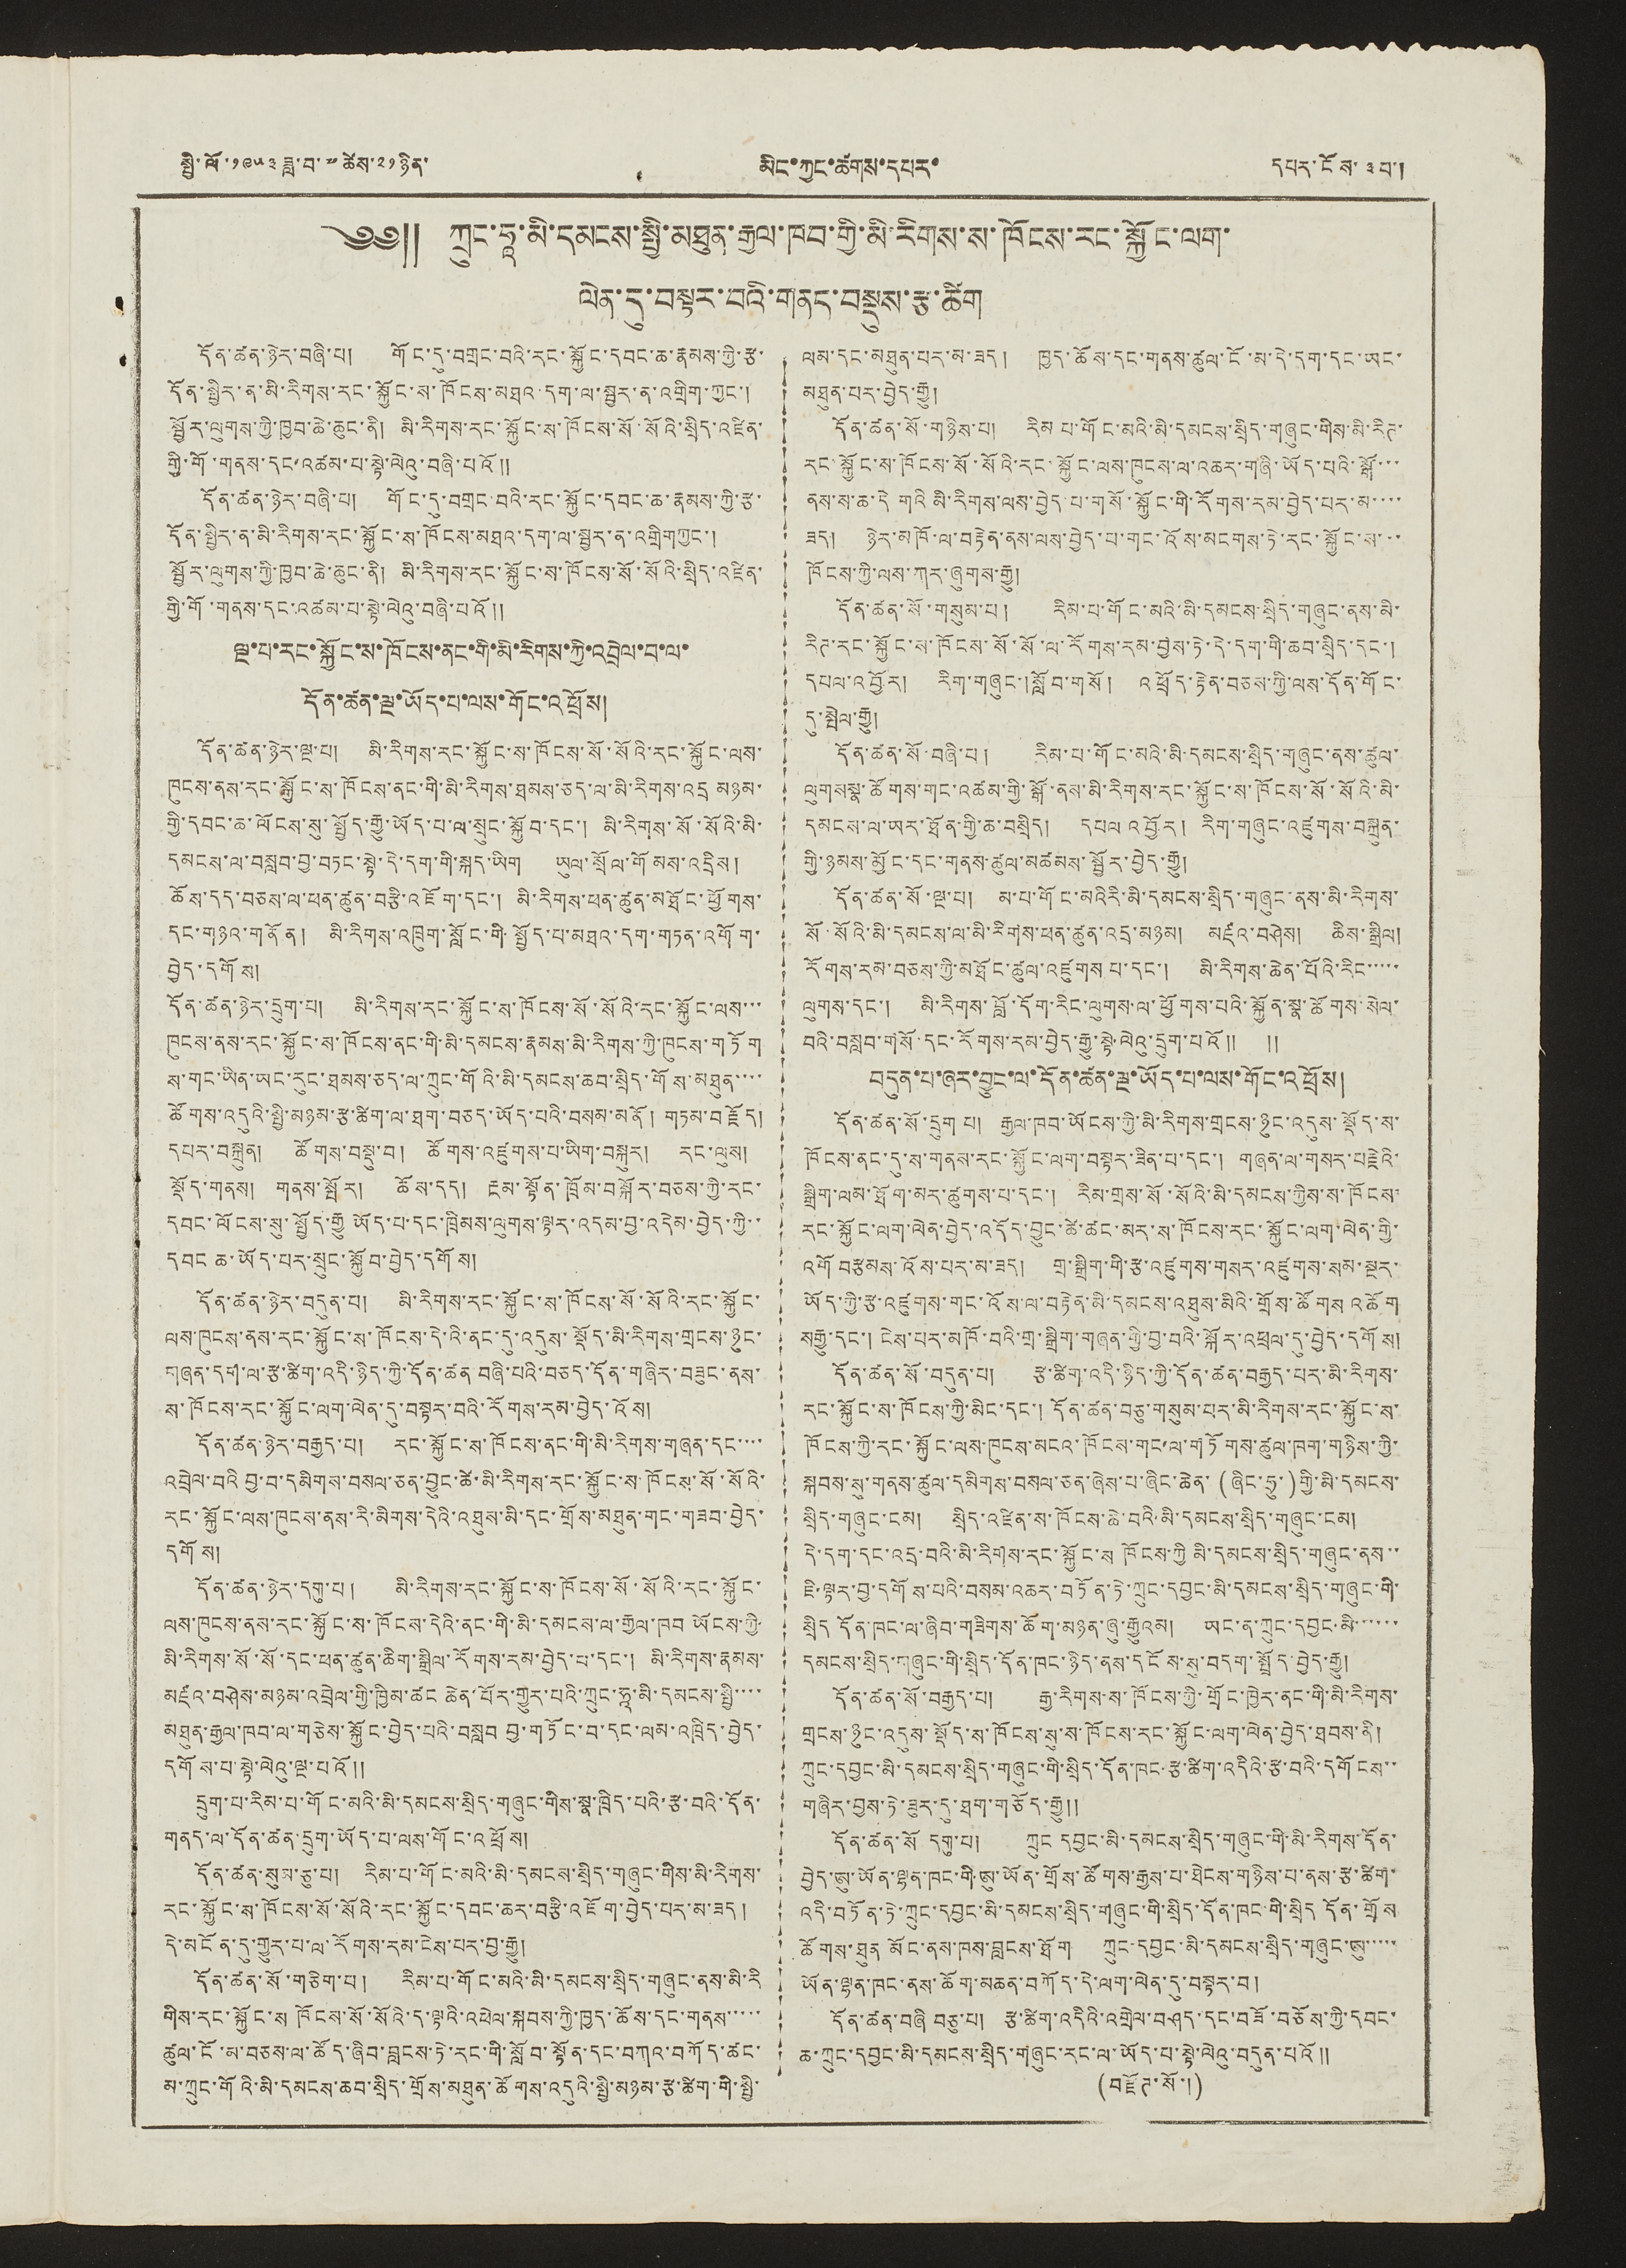སྤྱི་ལོ་ ༡༩༥༣ ཟླ་བ་ ༧ ཚེས་ ༢༡ ཉིན་ མིང་ཀྱང་ཚགས་དཔར་ དཔར་ངོས་ ༣ པ་།
༄༅༎ ཀྲུང་ཧཱ་མི་དམངས་སྤྱི་མཐུན་རྒྱལ་ཁབ་གྱི་མི་རིགས་ས་ཁོངས་རང་སྐྱོང་ལག་
ལེན་དུ་བསྟར་བའི་གནད་བསྡུས་རྩ་ཚིག
དོན་ཚན་ཉེར་བཞི་པ། གོང་དུ་བགྲང་བའི་རང་སྐྱོང་དབང་ཆ་རྣམས་ཀྱི་རྩ་
དོན་སྤྱིར་ན་མི་རིགས་རང་སྐྱོང་ས་ཁོངས་མཐའ་དག་ལ་སྦྱར་ན་འགྲིག་ཀྱང་།
སྦྱོར་ལུགས་ཀྱི་ཁྱབ་ཆེ་ཆུང་ནི། མི་རིགས་རང་སྐྱོང་ས་ཁོངས་སོ་སོའི་སྲིད་འཛིན་
གྱི་གོ་གནས་དང་འཚམ་པ་སྟེ་ལེའུ་བཞི་པའོ༎
དོན་ཚན་ཉེར་བཞི་པ། གོང་དུ་བགྲང་བའི་རང་སྐྱོང་དབང་ཆ་རྣམས་ཀྱི་རྩ་
དོན་སྤྱིར་ན་མི་རིགས་རང་སྐྱོང་ས་ཁོངས་མཐའ་དག་ལ་སྦྱར་ན་འགྲིག ཀྱང་།
སྦྱོར་ལུགས་ཀྱི་ཁྱབ་ཆེ་ཆུང་ནི། མི་རིགས་རང་སྐྱོང་ས་ཁོངས་སོ་སོའི་སྲིད་འཛིན་
གྱི་གོ་གནས་དང་འཚམ་པ་སྟེ་ལེའུ་བཞི་པའོ༎
ལྔ་པ་རང་སྐྱོང་ས་ཁོངས་ནང་གི་མི་རིགས་ཀྱི་འབྲེལ་བ་ལ་
དོན་ཚན་ལྔ་ཡོད་པ་ལས་གོང་འཕྲོས།
དོན་ཚན་ཉེར་ལྔ་པ། མི་རིགས་རང་སྐྱོང་ས་ཁོངས་སོ་སོའི་རང་སྐྱོང་ལས་
ཁུངས་ནས་རང་སྐྱོང་ས་ཁོངས་ནང་གི་མི་རིགས་ཐམས་ཅད་ལ་མི་རིགས་འདྲ མཉམ་
གྱི་དབང་ཆ་ལོངས་སུ་སྤྱོད་རྒྱུ་ཡོད་པ་ལ་སྲུང་སྐྱོབ་དང་། མི་རིགས་སོ་སོའི་མི་
དམངས་ལ་བསླབ་བྱ་བཏང་སྟེ་དེ་དག་གི་སྐད་ཡིག ཡུལ་སྲོལ་གོ མས་འདྲིས།
ཆོས་དད་བཅས་ལ་ཕན་ཚུན་བརྩི་འཇོག་དང་། མི་རིགས་ཕན་ཚུན་མཐོང་ཕྱོགས་
དང་གཉའ་གནོན། མི་རིགས་འཁྲུག་སློང་གི་སྤྱོད་པ་མཐའ་དག་གཏན་འགོག་
བྱེད་དགོས།
དོན་ཚན་ཉེར་དྲུག་པ། མི་རིགས་རང་སྐྱོང་ས་ཁོངས་སོ་སོའི་རང་སྐྱོང་ལས་་་་
ཁུངས་ནས་རང་སྐྱོང་ས་ཁོངས་ནང་གི་མི་དམངས་རྣམས་མི་རིགས་ཀྱི་ཁུངས་གཏོག
ས་གང་ཡིན་ཡང་རུང་ཐམས་ཅད་ལ་ཀྲུང་གོའི་མི་དམངས་ཆབ་སྲིད་གོས་མཐུན་་་་
ཚོགས་འདུའི་སྤྱི་མཉམ་རྩ་ཚིག་ལ་ཐག་བཅད་ཡོད་པའི་བསམ་མནོ། གཏམ་བརྗོད།
དཔར་བསྐྲུན། ཚོགས་བསྡུ་བ། ཚོགས་འཛུགས་པ་ཡིག་བསྐུར། རང་ལུས།
སྡོད་གནས། གནས་སྤོར། ཆོས་དད། རྔམ་སྟོན་ཁྲོམ་བསྐོར་བཅས་ཀྱི་རང་
དབང་ལོངས་སུ་སྤྱོད་རྒྱུ ཡོད་པ་དང་ཁྲིམས་ལུགས་ལྟར་འདམ་བྱ་འདེམ་བྱེད་ཀྱི་་
དབང ཆ་ཡོད་པར་སྲུང་སྐྱོབ་བྱེད་དགོས།
དོན་ཚན་ཉེར་བདུན་པ། མི་རིགས་རང་སྐྱོང་ས་ཁོངས་སོ་སོའི་རང་སྐྱོང་
ལས་ཁུངས་ནས་རང་སྐྱོང་ས་ཁོངས་དེ་འི་ནང་དུ་འདུས་སྡོད་མི་རིགས་གྲངས་ཉུང་
གཞན་དག་ལ་རྩ་ཚིག་འདི་ཉིད་ཀྱི་དོན་ཚན་བཞི་པའི་བཅད་དོན་གཞིར་བཟུང་ནས་
ས་ཁོངས་རང་སྐྱོང་ལག་ལེན་དུ་བསྟར་བའི་རོགས་རམ་བྱེད་འོས།
དོན་ཚན་ཉེར་བརྒྱད་པ། རང་སྐྱོང་ས་ཁོངས་ནང་གི་མི་རིགས་གཞན་དང་་་་
འབྲེལ་བའི བྱ་བ་དམིགས་བསལ་ཅན་བྱུང་ཚེ་མི་རིགས་རང་སྐྱོང་ས་ཁོངས་སོ་སོའི་
རང་སྐྱོང་ལས་ཁུངས་ནས་རི་མིགས་དེའི་འཐུས་མི་དང་གྲོས་མཐུན་གང་གཟབ་བྱེད་
དགོས།
དོན་ཚན་ཉེར་དགུ་པ། མི་རིགས་རང་སྐྱོང་ས་ཁོངས་སོ་སོའི་རང་སྐྱོང་
ལས་ཁུངས་ནས་རང་སྐྱོང་ས་ཁོངས་དེའི་ནང་གི་མི་དམངས་ལ་རྒྱལ་ཁབ ཡོངས་ཀྱི་
མི་རིགས་སོ་སོ་དང་ཕན་ཚུན་ཆིག་སྒྲིལ་རོགས་རམ་བྱེད་པ་དང་། མི་རིགས་རྣམས་
མཛའ་བཤེས་མཉམ་འབྲེལ་གྱི་ཁྱིམ་ཚང ཆེན་པོར་གྱུར་པའི་ཀྲུང་ཧཱ་མི་དམངས་སྤྱི་་་་
མཐུན་རྒྱལ་ཁབ་ལ་གཅེས་སྐྱོང་བྱེད་པའི་བསླབ བྱ་གཏོང་བ་དང་ལམ་འཁྲིད་བྱེད་
དགོས་པ་སྟེ་ལེའུ་ལྔ་པའོ༎
དྲུག་པ་རིམ་པ་གོང་མའི་མི་དམངས་སྲིད་གཞུང་གིས་སྣ་ཁྲིད་པའི་རྩ་བའི་དོན་
གནད་ལ་དོན་ཚན་དྲུག་ཡོད་པ་ལས་གོང་འཕྲོས།
དོན་ཚན་སུམ་ཅུ་པ། རིམ་པ་གོང་མའི་མི་དམངས་སྲིད་གཞུང་གིས་མི་རིགས་
རང་སྐྱོང་ས་ཁོངས་སོ་སོའི་རང་སྐྱོང་དབང་ཆར་བརྩི་འཇོག་བྱེད་པར་མ་ཟད།
དེ་མངོན་དུ་གྱུར་པ་ལ་རོགས་རམ་ངེས་པར་བྱ་རྒྱུ།
དོན་ཚན་སོ་གཅིག་པ། རིམ་པ་གོང་མའི་མི་དམངས་སྲིད་གཞུང་ནས་མི་རི
གིས་རང་སྐྱོང་ས ཁོངས་སོ་སོའི་ད་ལྟའི་འཕེལ་སྐབས་ཀྱི་ཁྱད་ཆོས་དང་གནས་་་་་
ཚུལ་ངོ་མ་བཅས་ལ་ཚོད་ཞིབ་བླངས་ཏེ་རང་གི་སློབ་སྟོན་དང་བཀའ་བཀོད་ཚང་
མ་ཀྲུང་གོའི་མི་དམངས་ཆབ་སྲིད་གྲོས་མཐུན་ཚོགས་འདུའི་སྤྱི་མཉམ་རྩ་ཚིག་གི་སྤྱི་
ལམ་དང་མཐུན་པར་མ་ཟད། ཁྱད་ཆོས་དང་གནས་ཚུལ་ངོ་མ་དེ་དག་དང་ཡང་
མཐུན་པར་བྱེད་རྒྱུ།
དོན་ཚན་སོ་གཉིས་པ། རིམ པ་གོང་མའི་མི་དམངས་སྲིད་གཞུང་གིས་མི་རིཊ་
རང་སྐྱོང་ས་ཁོངས་སོ་སོའི་རང་སྐྱོང་ལས་ཁུངས་ལ་འཆར་གཞི་ཡོད་པའི་སྒོ་་་
ནས་ས་ཆ་དེ གའི་མི་རིགས་ལས་བྱེད་པ་གསོ་སྐྱོང་གི་རིགས་རམ་བྱེད་པར་མ་་་་
ཟད། ཉེར་མཁོ་ལ་བརྟེན་ནས་ལས་བྱེད་པ་གང་འོས་མངགས་ཏེ་རང་སྐྱོང་ས་་་
ཁོངས་ཀྱི་ལས་ཀྲ་ཞུགས་རྒྱུ།
དོན་ཚན་སོ་གསུམ་པ། རིམ་པ་གོང་མའི་མི་དམངས་སྲིད་གཞུང་ནས་མི་
རིཊ་རང་སྐྱོང་ས་ཁོངས་སོ་སོ་ལ་རོགས་རམ་བྱས་ཏེ་དེ་དག་གི་ཆབ་སྲིད་དང་།
དཔལ་འབྱོར། རིག་གཞུང་། སློབ་གསོ། འཕྲོད་རྟེན་བཅས་ཀྱི་ལས་དོན་གོང་
དུ་སྤེལ་རྒྱུ།
དོན་ཚན་སོ་བཞི་པ། རིམ་པ་གོང་མའི་མི་དམངས་སྲིད་གཞུང་ནས་ཚུལ་
ལུགསསྣ་ཚོགས་གང་འཚམ་གྱི་སྒོ་ནས་མི་རིགས་རང་སྐྱོང་ས་ཁོངས་སོ་སོའི་མི་
དམངས་ལ་ཡར་ཐོན་གྱི་ཆ་བསྲིད། དཔལ འབྱོར། རིག་གཞུང་འཛུགས་བསྐྲུན་
གྱི་ཉམས་མྱོང་དང་གནས་ཚུལ་མཚམས་སྦྱོར་བྱེད་རྒྱུ།
དོན་ཚན་སོ་ལྔ་པ། མ་པ་གོང་མའི རི་མི་དམངས་སྲིད་གཞུང་ནས་མི་རིགས་
སོ་སོའི་མི་དམངས་ལ་མི་རིགས་ཕན་ཚུན་འདྲ་མཉམ། མཛའ་བཤེས། ཆིས་སྒྲིལ།
རོགས་རམ་བཅས་ཀྱི་མཐོང་ཚུལ་འཛུགས པ་དང་། མི་རིགས་ཆེན་པོའི་རིང་་་་་
ལུགས་དང་། མི་རིགས་བློ་དོག་རིང་ལུགས་ལ་ཕྱོགས་པའི་སྐྱོན་སྣ་ཚོགས་སེལ་
བའི་བསླབ་གསོ་དང་རོགས་རམ་བྱེད་རྒྱུ་སྟེ་ལེའུ་དྲུག་པའོ༎ ༎
བདུན་པ་ཞར་བྱུང་ལ་དོན་ཚན་ལྔ་ཡོད་པ་ལས་གོང་འཕྲོས།
དོན་ཚན་སོ་དྲུག པ། རྒྱལ་ཁབ་ཡོངས་ཀྱི་མི་རིགས་གྲངས་ཉུང་འདུས་སྡོད་ས་
ཁོངས་ནང་དུ་ས་གནས་རང་སྐྱོང་ལག་བསྟར་ཟིན་པ་དང་། གཞན་ལ་གསར་བརྗེའི་
སྒྲིག་ལམ་ཐོག་མར་ཚུགས་པ་དང་། རིམ་གྲས་སོ་སོའི་མི་དམངས་ཀྱིས་ས་ཁོངས་
རང་སྐྱོང་ལག་ལེན་བྱེད་འདོད་བྱུང་ཚེ་ཚང་མར་ས་ཁོངས་རང་སྐྱོང་ལག་ལེན་གྱི་
འགོ བརྩམས་འོས་པར་མ་ཟད། གྲ་སྒྲིག་གི་རྩ་འཛུགས་གསར་འཛུགས་སམ་སྔར་
ཡོད་ཀྱི་རྩ་འཛུགས་གང་འོས་ལ་བརྟེན་མི་དམངས་འཐུས་མིའི་གྲོས་ཚོགས འཚོག
སརྒྱུ་དང་། ངེས་པར་མཁོ་བའི་གྲ་སྒྲིག་གཞན་གྱི་བྱ་བའི་སྐོར་འཕྲལ་དུ་བྱེད་དགོས།
དོན་ཚན་སོ་བདུན་པ། རྩ་ཚིག་འདི་ཉིད་གྱི་དོན་ཚན་བརྒྱད་པར་མི་རིགས་
རང་སྐྱོང་ས་ཁོངས་ཀྱི་མིང་དང་། དོན་ཚན་བཅུ་གསུམ་པར་མི་རིགས་རང་སྐྱོང་ས་
ཁོངས་ཀྱི་རང་སྐྱོང་ལས་ཁུངས་མངའ་ཁོངས་གང་ལ་གཏོགས་ཚུལ་ཁག་གཉིས་ཀྱི་
སྐབས་སུ་གནས་ཚུལ་དམིགས་བསལ་ཅན་ཞེས་པ་ཞིང་ཆེན་ (ཞིང་ཧྲུ་) གྱི་མི་དམངས་
སྲིད་གཞུང་ངམ། སྲིད་འཛིན་ས་ཁོངས་ཆེ་བའི་མི་དམངས་སྲིད་གཞུང་ངམ།
དེ་དག་དང་འདྲ་བའི་མི་རིགས་རང་སྐྱོང་ས ཁོངས་ཀྱི མི་དམངས་སྲིད་གཞུང་ནས་་
ཇི་ལྟར་བྱ་དོགས་པའི་བསམ་འཆར་བཏོན་ཏེ་ཀྲུང་དབྱང་མི་དམངས་སྲིད་གཞུང་གི་
སྲིད དོན་ཁང་ལ་ཞིབ་གཟིགས་ཆོག་མཉན་ཞུ་རྒྱུའམ། ཡང་ན་ཀྲུང་དབྱང་མི་་་་་་
དམངས་སྲིད་གཞུང་གི་སྲིད་དོན་ཁང་ཉིད་ནས་དངོས་སུ་བདག་སྤྲོད་བྱེད་རྒྱུ།
དོན་ཚན་སོ་བརྒྱད་པ། རྒྱ་རིགས་ས་ཁོངས་ཀྱི་གྲོང་ཁྱེར་ནང་གི་མི་རིགས་
གྲངས་ཉུང་འདུས་སྡོད་ས་ཁོངས་སུ་ས་ཁོངས་རང་སྐྱོང་ལག་ལེན་བྱེད་ཐབས་ནི།
ཀྲུང་དབྱང་མི་དམངས་སྲིད་གཞུང་གི་སྲིད་དོན་ཁང་རྩ་ཚིག་འདིའི་རྩ་བའི་དགོངས་་
གཞིར་བྱས་ཏེ་ཟུར་དུ་ཐག་གཅོད་རྒྱུ༎
དོན་ཚན་སོ དགུ་པ། ཀྲུང དབྱང་མི་དམངས་སྲིད་གཞུང་གི་མི་རིགས་དོན་
བྱེད་ཨུ་ཡོན་ལྷན་ཁང་གི་ཨུ་ཡོན་གྲོས་ཚོགས་རྒྱས་པ་ཐེངས་གཉིས་པ་ནས་རྩ་ཚིག་
འདི་བཏོན་ཏེ་ཀྲུང་དབྱང་མི་དམངས་སྲིད་གཞུང་གི་སྲིད་དོན་ཁང་གི་སྲིད དོན་གྲོས
ཚོགས་ཐུན མོང་ནས་ཁས་བླངས་ཐོག ཀྲུང་དབྱང་མི་དམངས་སྲིད་གཞུང་ཨུ་་་་་
ཡོན་ལྷན་ཁང་ནས་ཆོག་མཆན་བཀོད་དེ་ལག་ལེན་དུ་བསྟར་བ།
དོན་ཚན་བཞི བཅུ་པ། རྩ་ཚིག་འདིའི་འགྲེལ་བཤད་དང་བཟོ་བཅོས་ཀྱི་དབང་
ཆ་ཀྲུང་དབྱང་མི་དམངས་སྲིད་གཞུང་རང་ལ་ཡོད་པ་སྟེ་ལེའུ་བདུན་པའོ༎
(བརྫོཊ་སོ་།)
